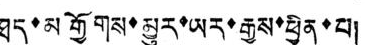ཐད་མགྱོགས་མྱུར་ཡར་རྒྱས་ཕྱིན་པ།
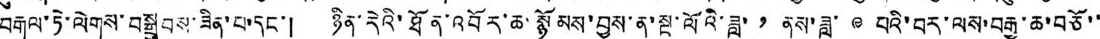བརྒལ་ཏེ་ལེགས་བསྒྲུབས་ཟིན་པ་དང་། ཉིན་རེའི་ཐོན་འབོར་ཆ་སྙོམས་བྱས་ན་སྔ་ལོའི་ཟླ་ ༡ ནས་ཟླ་ ༩ པའི་བར་ལས་བརྒྱ་ཆ་བཅོ་་
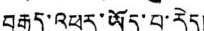བརྒྱད་འཕར་ཡོད་པ་རེད།
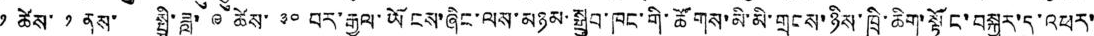༡ ཚེས་ ༡ ནས་ སྤྱི་ཟླ་ ༩ ཚེས་ ༣༠ བར་རྒྱལ་ཡོངས་ཞིང་ལས་མཉམ་སྒྲུབ་ཁང་གི་ཚོགས་མི་གྲངས་ཉིས་ཁྲི་ཆིག་སྟོང་བསྐྱར་དུ་འཕར་
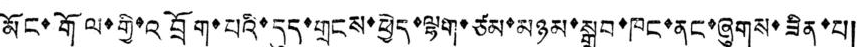མོང་གོལ་གྱི་འབྲོག་པའི་དུད་གྲངས་ཕྱེད་ལྷག་ཙམ་མཉམ་སྒྲུབ་ཁང་ནང་ཞུགས་ཟིན་པ།
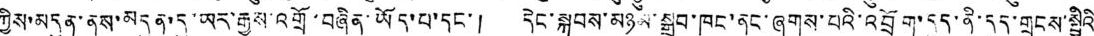ཀྱིས་མདུན་ནས་མདུན་དུ་ཡར་རྒྱས་འགྲོ་བཞིན་ཡོད་པ་དང་། དེང་སྐབས་མཉམ་སྒྲུབ་ཁང་ནང་ཞུགས་པའི་འབྲོག་དུད་ནི་དུད་གྲངས་སྤྱིའི་
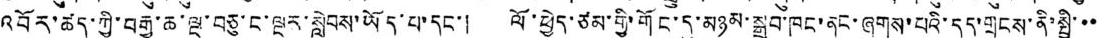འབོར་ཚད་ཀྱི་བརྒྱ་ཆ་ལྔ་བཅུ་ང་ལྔར་སླེབས་ཡོད་པ་དང་། ལོ་ཕྱེད་ཙམ་གྱི་གོང་དུ་མཉམ་སྒྲུབ་ཁང་ནང་ཞུགས་པའི་དུད་གྲངས་ནི་སྤྱི་་་་
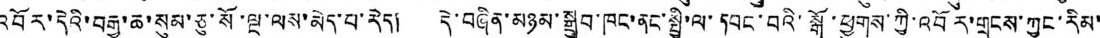འབོར་དེའི་བརྒྱ་ཆ་སུམ་ཅུ་སོ་ལྔ་ལས་མེད་པ་རེད། དེ་བཞིན་མཉམ་སྒྲུབ་ཁང་ནང་སྤྱི་ལ་དབང་བའི་སྒོ་ཕྱུགས་ཀྱི་འབོར་གྲངས་ཀྱང་རིམ་
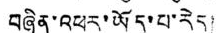བཞིན་འཕར་ཡོད་པ་རེད།
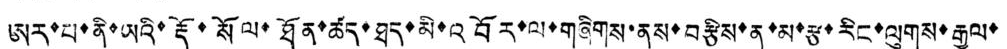ཨར་པ་ནི་ཡའི་རྡོ་སོལ་ཐོན་ཚད་ཐད་མི་འབོར་ལ་གཞིགས་ནས་བརྩིས་ན་མ་རྩ་རིང་ལུགས་རྒྱལ་
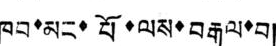ཁབ་མང་པོ་ལས་བརྒལ་བ།
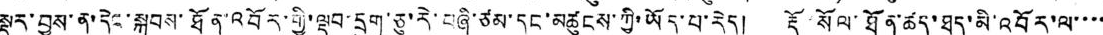སྡུར་བྱས་ན་དེང་སྐབས་ཐོན་འབོར་གྱི་ལྡབ་དྲུག་ཅུ་རེ་བཞི་ཙམ་དང་མཚུངས་ཀྱི་ཡོད་པ་རེད། རྡོ་སོལ་ཐོན་ཚད་ཐད་མི་འབོར་ལ་་་་
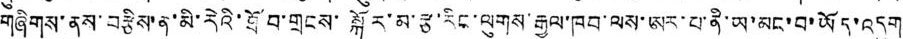གཞིགས་ནས་བརྩིས་ན་མི་རེའི་གྲོབ་གྲངས་སྐོར་མ་རྩ་རིང་ལུགས་རྒྱལ་ཁབ་ལས་ཨར་པ་ནི་ཡ་མང་བ་ཡོད་འདུག
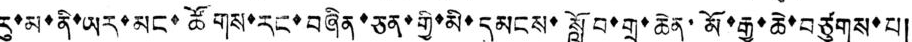རུ་མ་ནི་ཡར་མང་ཚོགས་རང་བཞིན་ཅན་གྱི་མི་དམངས་སློབ་གྲ་ཆེན་མོ་རྒྱ་ཆེ་བཙུགས་པ།
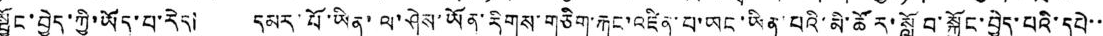སྦྱོང་བྱེད་ཀྱི་ཡོད་པ་རེད། དམར་པོ་ཡིན་པ་ཤེས་ཡོན་རིགས་གཅིག་རྐང་འཛིན་པ་ཡང་ཡིན་པའི་མི་ཚོར་སློབ་སྐྱོང་བྱེད་པའི་དཔེ་་
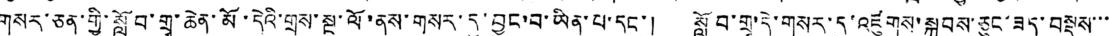གསར་ཅན་གྱི་སློབ་གྲྭ་ཆེན་མོ་དེའི་གྲས་སྔ་ལོ་ནས་གསར་དུ་བྱུང་བ་ཡིན་པ་དང་། སློབ་གྲྭ་དེ་གསར་དུ་འཛུགས་སྐབས་ཅུང་ཟད་བསྡུས་་་
